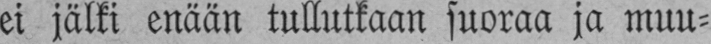ei jälki enään tullutkaan suoraa ja muu-
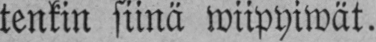tenkin siinä wiipyiwät.
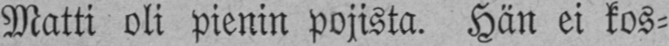Matti oli pienin pojista. Hän ei kos-
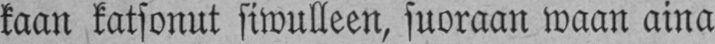kaan katsonut siwulleen, suoraan waan aina
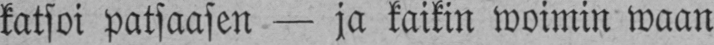katsoi patsaasen — ja kaikin woimin waan
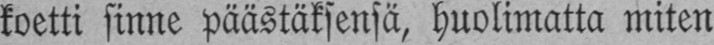koetti sinne päästäksensä, huolimatta miten
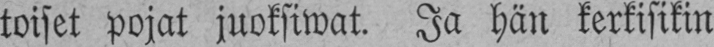toiset pojat juoksiwat. Ja hän kerkisikin
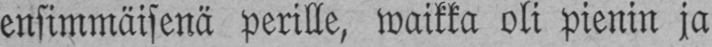ensimmäisenä perille, waikka oli pienin ja
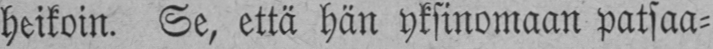heikoin. Se, että hän yksinomaan patsaa-
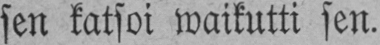sen katsoi waikutti sen.
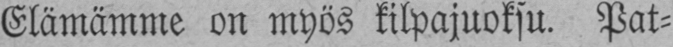Elämämme on myös kilpajuoksu. Pat-
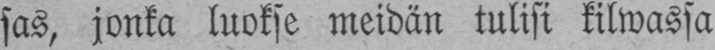sas, jonka luokse meidän tulisi kilwassa
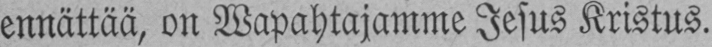ennättää, on Wapahtajamme Jesus Kristus.
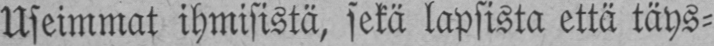Useimmat ihmisistä, sekä lapsista että täys-
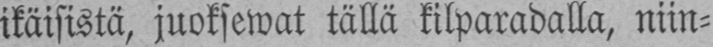ikäisistä, juoksewat tällä kilparadalla, niin-
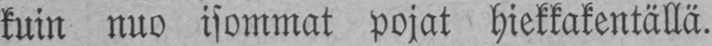kuin nuo isommat pojat hiekkakentällä.
